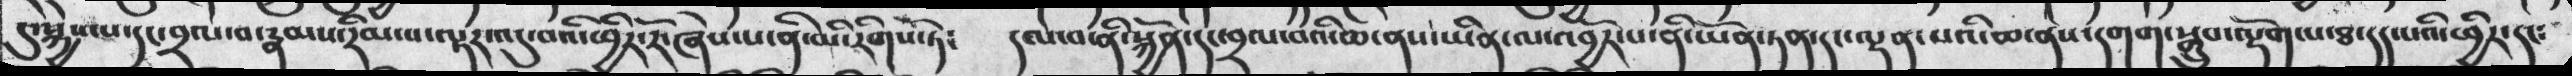དུ་སྐྱེས་དང་བྲལ་བ་རྣམས་རིམ་པ་ལྟར་འདུ་བའི་ཕྱིར་རོ་ཞེས་པ་ནི་མི་རིགས་ཏེ༴  དལ་བ་ནི་སྐྱོན་དང་བྲལ་བའི་ཆ་ནས་ཡིན་ལ་འབྱོར་པ་ནི་ཡོན་ཏན་དང་ལྡན་པའི་ཆ་ནས་དགག་སྒྲུབ་ལྡོག་པ་ཐ་དད་པའི་ཕྱིར་དང༴
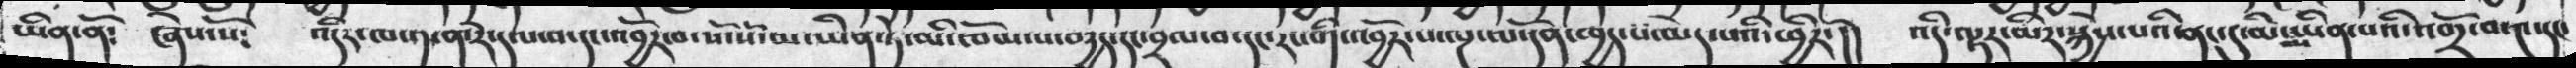ཡིན་ནོ༴  ཞེས་སོ༴  འདིར་ཁ་༡་ན་རེ་དལ་བ་དང་འབྱོར་བ་སོ་སོ་མ་ཡིན་ཏེ་མི་ཁོམ་པ་བདྱད་དང་བྲལ་བ་དང་རང་གི་འབྱོར་པ་ལྔ་ལ་དོན་ཁྱད་མེད་པའི་ཕྱིར་།།  འདི་ལྟར་མིར་སྐྱེས་པའི་ནང་དུ་མི་ཡིན་པའི་འགྲོ་བ་༤་དང་
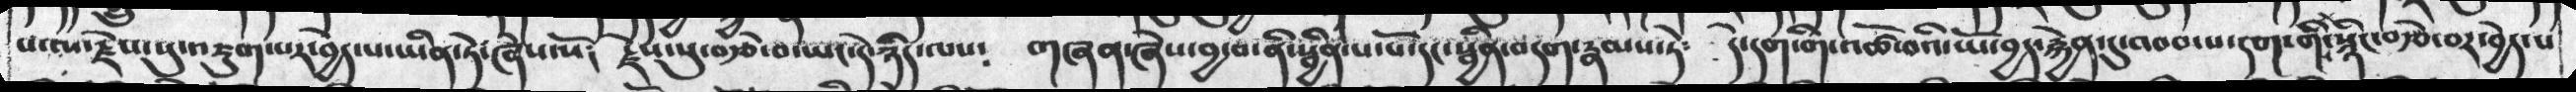པ་ལ་རྗེས་སུ་འཇུག་པར་བྱེད་པ་ཡིན་ཏེ་ཞེས་སོ།  རྗེས་སུ་བརྩེ་བ་ཡང་དེ་ཉིད་ལས༴      ་ཞེས་བྱ་བ་ནི་སྦྱིན་བདག་རྣམས་ཏེ༴  དེ་དག་གི་འཚོ་བའི་ཡོ་བྱད་རྐྱེན་དུ་འབབ་པ་དག་གི་སྙིང་བརྩེ་བར་བྱེད་པ་
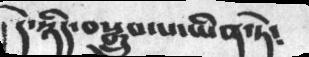།དེ་ཉིད་བསྒྲུབ་པ་ཡིན་ཏེ༴
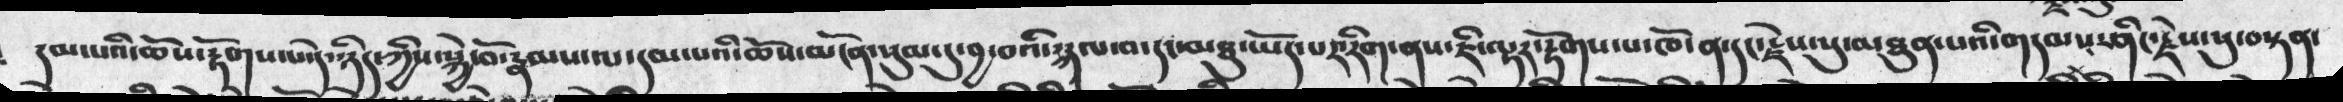དམ་པའི་ཆོས་རྟོགས་པ་དེ་ཉིད་ཀྱིས་སྐྱེ་བོ་རྣམས་ལ་དམ་པའི་ཆོས་མངོན་སུམ་དུ་བྱ་བའི་སྐལ་བ་དང་མཐུ་ཡོད་པར་རིག་ནས་ཇི་ལྟར་རྟོགས་པ་ཁོ་ན་དང་རྗེས་སུ་མཐུན་པའི་གདམས་ཤིང་རྗེས་སུ་བསྟན་
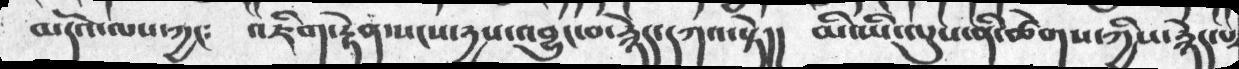མདོའ་ལས་ཀྱང༴  འཇིག་རྟེན་སངས་རྱས་འབྱུང་བ་རྙེད་དཀའ་སྟེ།།  མི་ཡི་ལུས་ནི་ཚེགས་ཀྱིས་རྙེད་པར
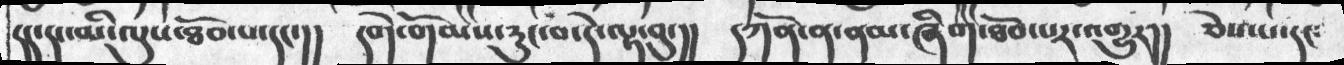།།་དང་མི་ལུས་ཐོབ་པ་དང་།། དགེ་གོམས་རུང་བ་དེ་ལྟ་བུ་།།  དཀོན་ན་ནམ་ཞིག་ཐོབ་པར་འགྱུར།། ཅེས་པ་དང༴
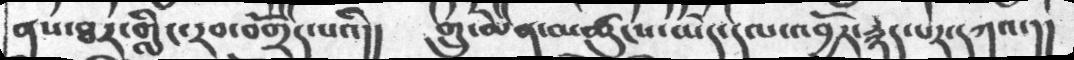ནས་ཐར་གླིང་རབ་བགྲོད་པའི།།  གྲུ་ཆེན་མཚུངས་མེད་དལ་འབྱོར་རྙེད་པར་དཀའ་།།
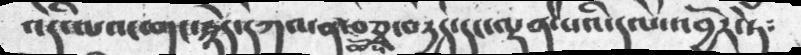འདི་ལའང་གང་རྙེད་དཀའ་ན་ཆོས་བཅྭ་བདྱད་དང་ལྡན་པའི་དལ་འབྱོར་ཏེ༴
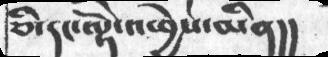ཅི་དང་ལྷོ་འཕྱེས་མིན།།
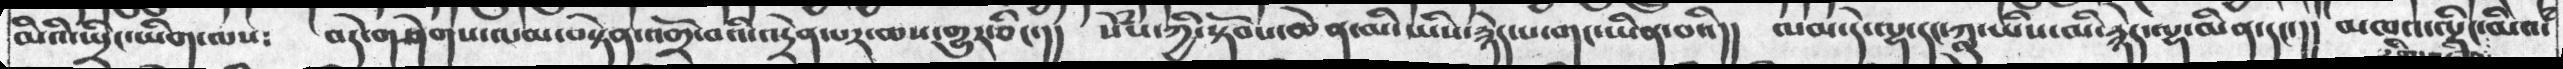མིའི་སྤྲིང་ཡིག་ལས༴   བདེ་གཤེགས་ལམ་བསྟེན་འགྲོ་བའི་འདྲེན་པར་ཆས་གྱུར་ཅིང་།།  སེཾས་ཀྱི་སྟོབས་ཆེན་མི་ཡིས་རྙེད་པ་གང་ཡིན་པའི།།  ལམ་དེ་ལྷ་དང་ཀླུ་ཡིས་མི་རྙེད་ལྷ་མིན་དང་།།  མཁའ་ལྡིང་མིའཾ་
